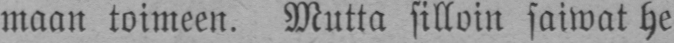maan toimeen. Mutta silloin saiwat he
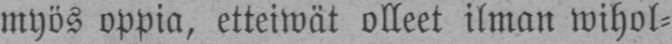myös oppia, etteiwät olleet ilman wihol-
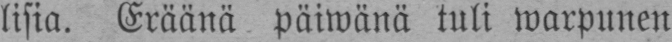lisia. Eräänä päiwänä tuli warpunen
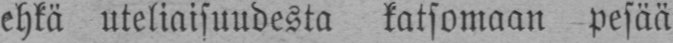ehkä uteliaisuudesta katsomaan pesää
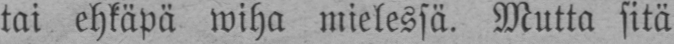tai ehkäpä wiha mielessä. Mutta sitä
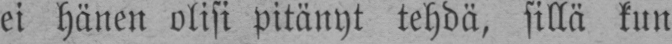ei hänen olisi pitänyt tehdä, sillä kun
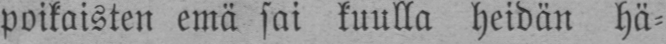poikaisten emä sai kuulla heidän hä-
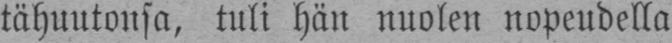tähuutonsa, tuli hän nuolen nopeudella
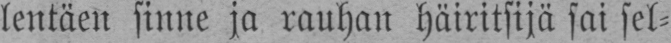lentäen sinne ja rauhan häiritsijä sai sel-
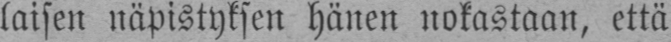laisen näpistyksen hänen nokastaan, että
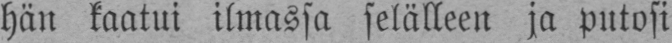hän kaatui ilmassa selälleen ja putosi
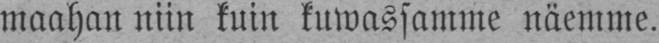maahan niin kuin kuwassamme näemme.
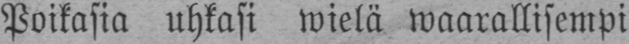Poikasia uhkasi wielä waarallisempi
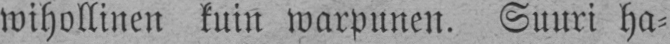wihollinen kuin warpunen. Suuri ha-
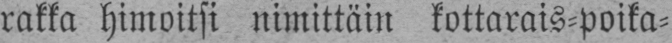rakka himoitsi nimittäin kottarais-poika-
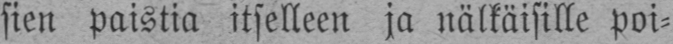sien paistia itselleen ja nälkäisille poi-
